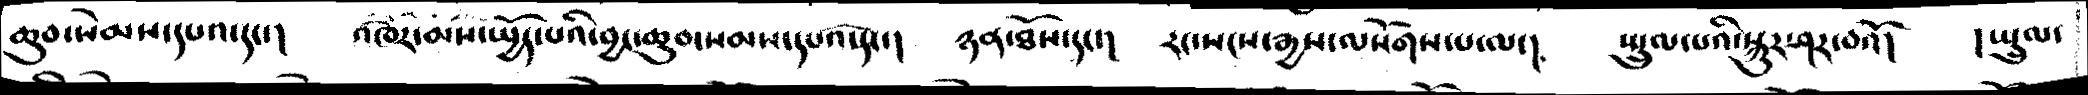ཆུབ་སེམས་དཔའ་དང་།   འཁོར་མོས་སྤྱོད་པའི་བྱང་ཆུབ་སམས་དཔའ་དང་།   ཉན་ཐོས་དང་།  རང་སངས་རྒྱས་ལསོགས་པ་ལ་།   སྤྲུལ་པའི་སྐུར་ཤར་བའོ།   །སྤྲུལ་
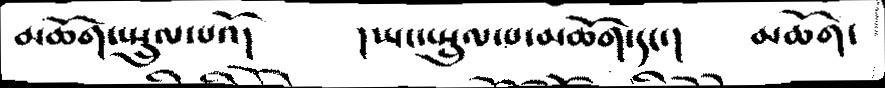མཆོག་སྤྲུལ་པའོ།   །ཡང་སྤྲུལ་པ་མཆོག་དང་།   མཆོག་
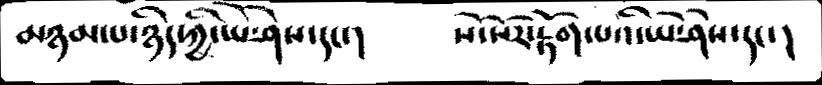མཉམ་པ་ཉིད་ཀྱི་ཡེ་ཤེས་དང་།   སོ་སོར་རྟོག་པའི་ཡེ་ཤེས་དང་།
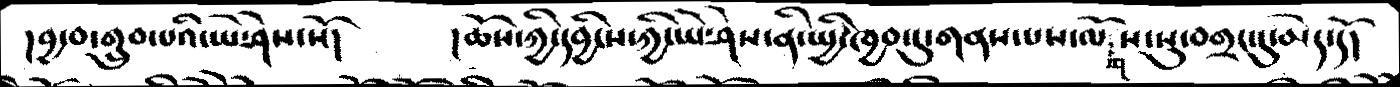།བྱ་བ་གྲུབ་པའི་ཡེ་ཤེས་སོ།   །ཆོས་ཀྱི་དབྱིངས་ཀྱི་ཡེ་ཤེས་ནི་སྤྱི་ཁྱབ་དུ་གནས་པས་ལོགས་སུ་བགྲང་དུ་མེད་དོ།
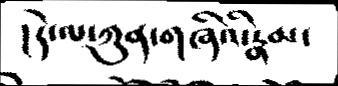།དེ་ལ་ཀུན་གཞིའི་རྣམ་
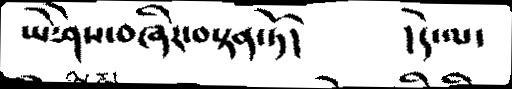ཡེ་ཤེས་བཞིར་བསྟན་ཏོ།    །དེ་ལ་
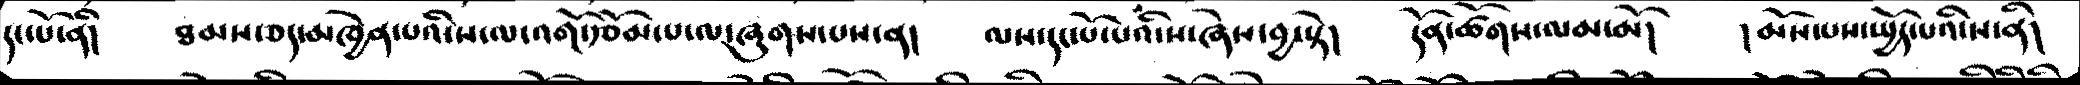དང་པོ་ནི།   ཐམས་ཅད་མཁྱེན་པའི་ས་ལ་འགོ་རྩོམ་པ་ལ་ཞུགས་པས་ན།   ལས་དང་པོ་པའི་ས་ཞེས་བྱ་སྟེ།   དོན་ཚོགས་ལམ་མོ།   །མོས་པས་སྤྱོད་པའི་ས་ནི།
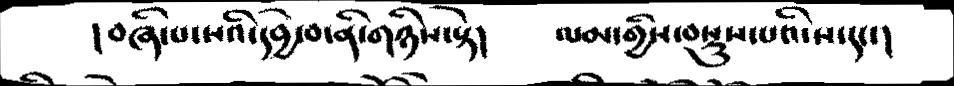།བཞི་པ་སའི་དབྱེ་བ་ནི་གཉིས་སྟེ།    ལམ་གྱིས་བསྡུས་པའི་ས་དང་།
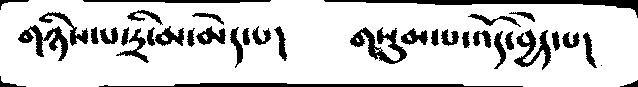གཉིས་པ་དྲི་མ་མེད་པ།   གསུམ་པ་འོད་བྱེད་པ།
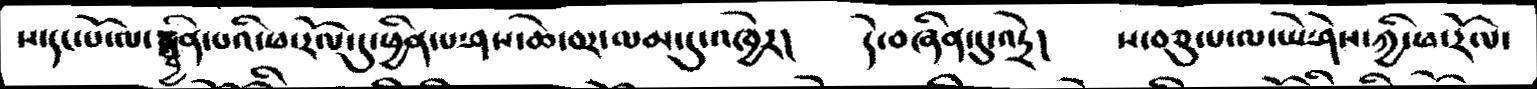ས་དང་པོ་ལ་སྦྱིན་པའི་ཕ་རོལ་དུ་ཕྱིན་པ་ཤས་ཆེ་བར་ལམ་དུ་འཁྱེར།   དེ་བཞིན་དུ་འདྲེ།   ས་བཅུ་པ་ལ་ཡེ་ཤེས་ཀྱི་ཕ་རོལ་
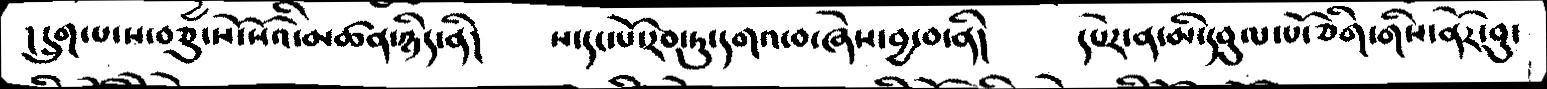།དྲུག་པ་ས་བཅུ་སོ་སོའི་མཚན་ཉིད་ནི།   ས་དང་པོ་རབ་ཏུ་དགའ་བ་ཞེས་བྱ་བ་ནི།   དཔེར་ན་མི་དབུལ་པོ་ཅིག་གིས་ནོར་བུ་
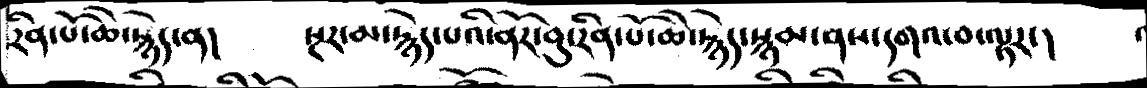རིན་པོ་ཆེ་རྙེད་ན།   སྔར་མ་རྙེད་པའི་ནོར་བུ་རིན་པོ་ཆེ་རྙེད་སྙམ་ནས་དགའ་བ་ལྟར་།
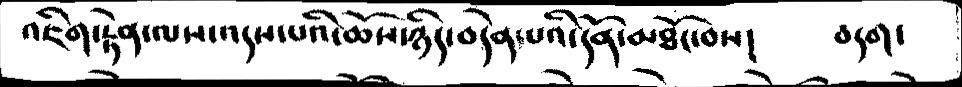འཇིག་རྟེན་ལས་འདས་པའི་ཆོས་ཉིད་བདེན་པའི་དོན་མཐོང་བས།  བདག་
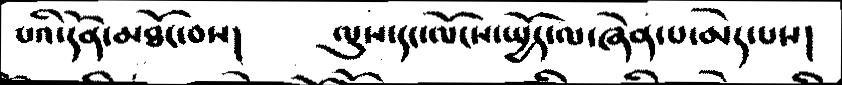པའི་དོན་མཐོང་བས།   ལུས་དང་ལོངས་སྤྱོད་ལ་ཞེན་པ་མེད་པས།
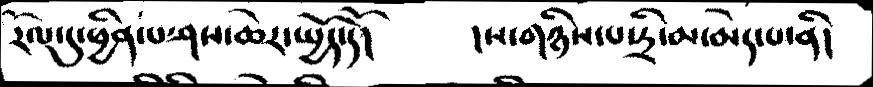རོལ་དུ་ཕྱིན་པ་ཤས་ཆེར་སྤྱོད་དོ།   །ས་གཉིས་པ་དྲི་མ་མེད་པ་ནི།
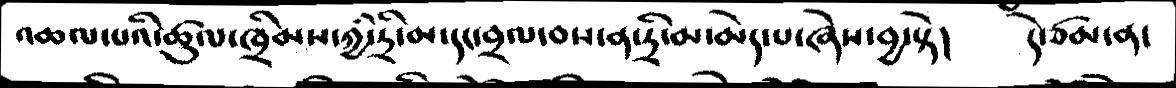འཆལ་པའི་ཚུལ་ཁྲིམས་ཀྱི་དྲི་མ་དང་བྲལ་བས་ན་དྲི་མ་མེད་པ་ཞེས་བྱ་སྟེ།  དེ་ཙམ་ན་
